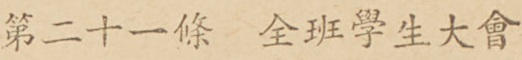第二十一條 全班學生大會
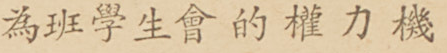為班學生會的權力機
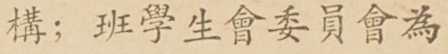構；班學生會委員會為
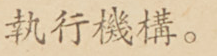執行機構。
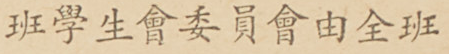班學生會委員會由全班
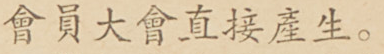會員大會直接產生。
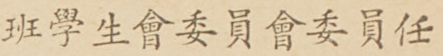班學生會委員會委員任
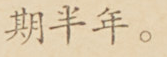期半年。
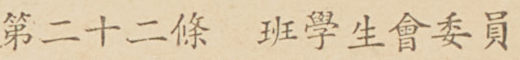第二十二條 班學生會委員
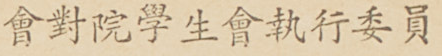會對院學生會執行委員
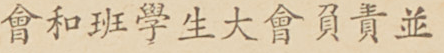會和班學生大會負責並
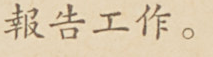報告工作。
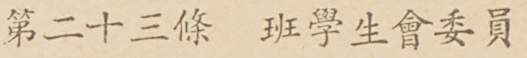第二十三條 班學生會委員
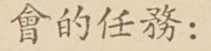會的任務：
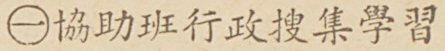㊀協助班行政搜集學習
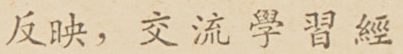反映，交流學習經
